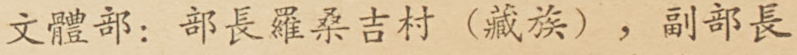文體部：部長羅桑吉村（藏族），副部長
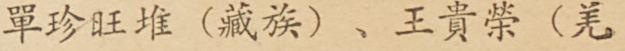單珍旺堆（藏族）、王貴榮（羌
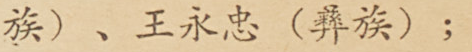族）、王永忠（彝族）；
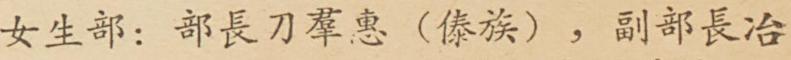女生部：部長刀羣惠（傣族），副部長冶
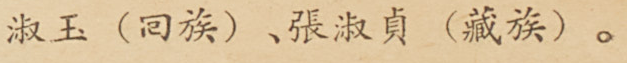淑玉（囘族）、張淑貞（藏族）。
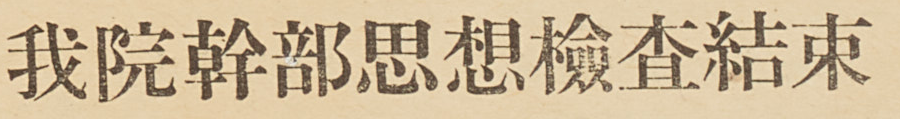我院幹部思想檢查結束
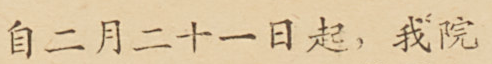自二月二十一日起，我院
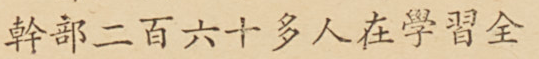幹部二百六十多人在學習全
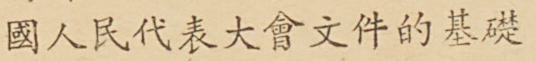國人民代表大會文件的基礎
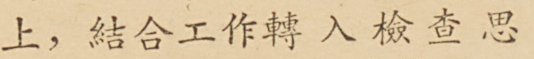上，結合工作轉入檢查思
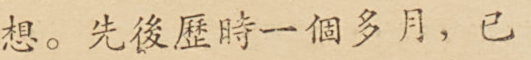想。先後歷時一個多月，已
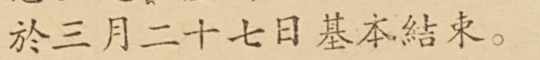於三月二十七日基本結束。
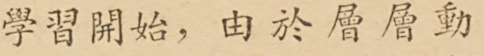學習開始，由於層層動
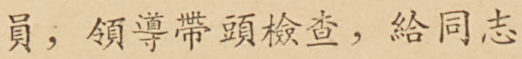員，領導帶頭檢查，給同志
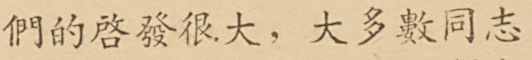們的啓發很大，大多數同志
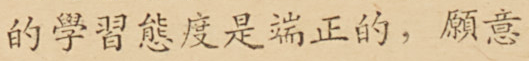的學習態度是端正的，願意
